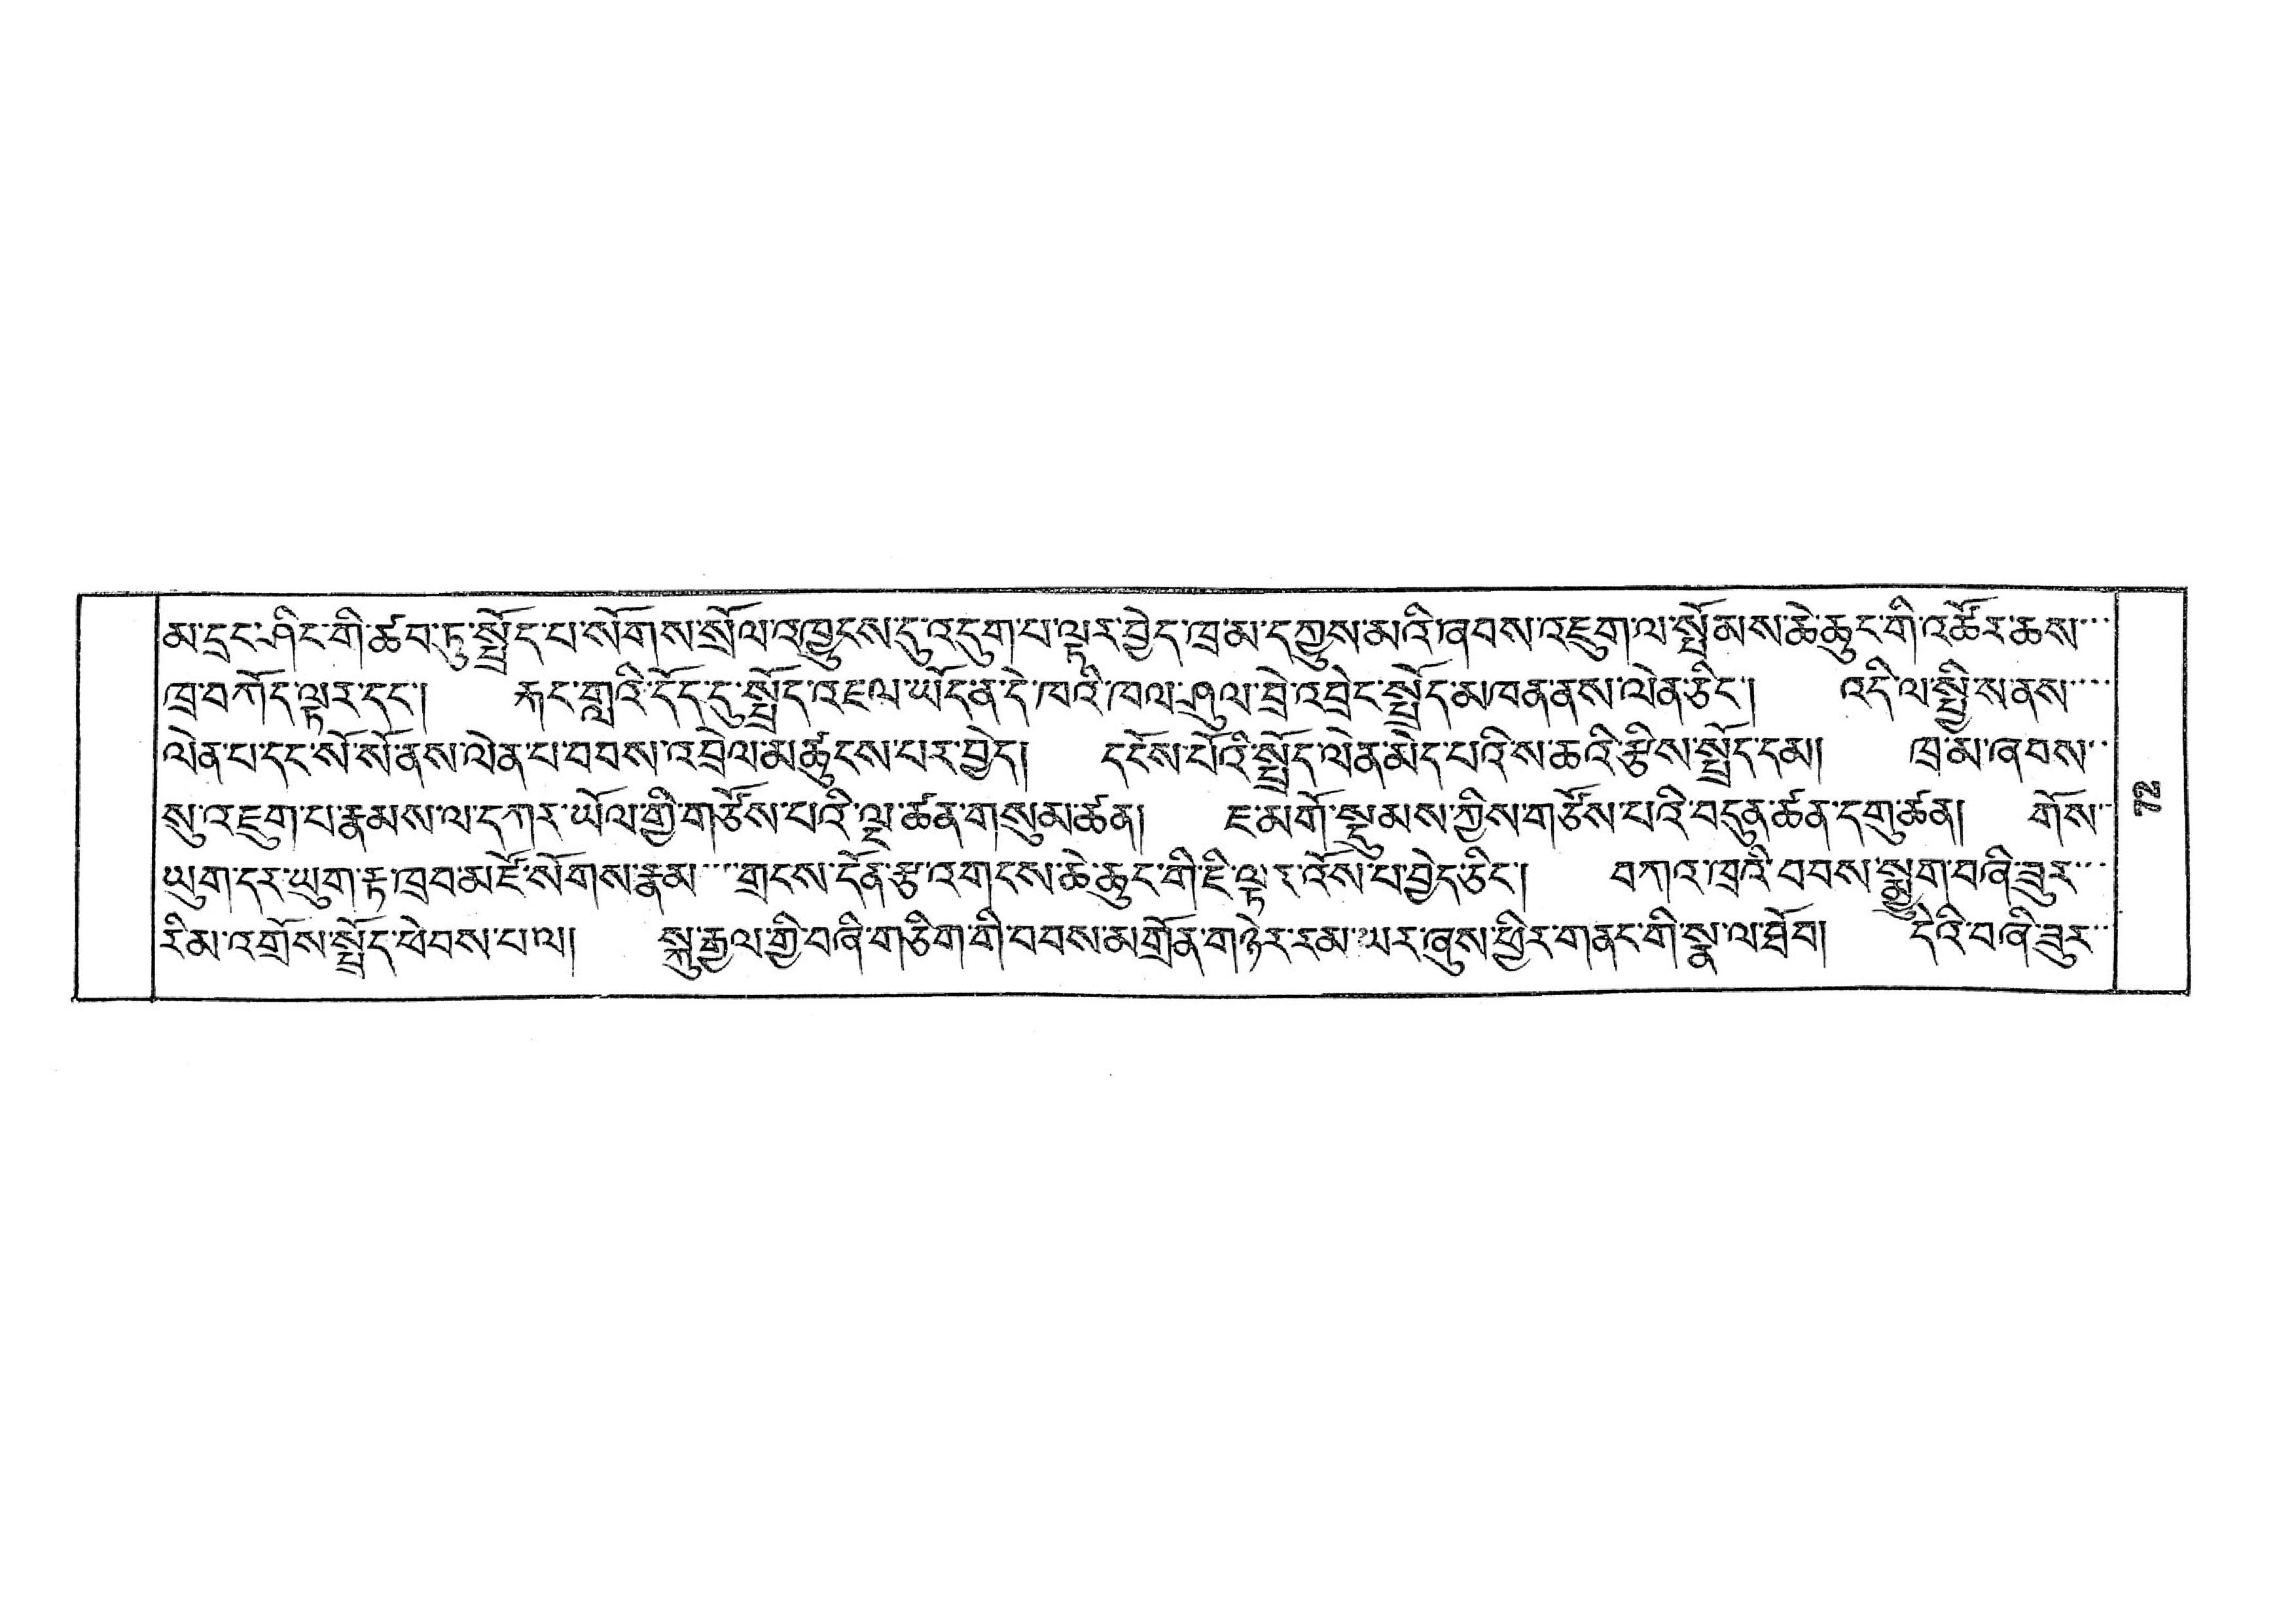མ་དྲང་ཤིང་གི་ཚབ་ཏུ་སྤྲོད་པ་སོགས་སྲོལ་འཁྱུངས་དུ་འདུག་པ་ལྟར་བྱེད་ཁྲ་མ་དཀྱུས་མའི་ཞབས་འཇུག་ལ་སྤོམས་ཆེ་ཆུང་གི་འཚོར་ཆས་་་
ཁྲ་བཀོད་ལྟར་དང་། རྐང་གླའི་དོད་དུ་སྤྲོད་འཇལ་ཡོད་ན་དེ་ལའི་ཁལ་ཤུལ་བྲེ་འབྲེང་སྤྲེད་མཁན་ནས་ལེན་ཅིང་། འདི་ལ་སྤྱི་ས་ནས་་་་
ལེན་པ་དང་སོ་སོ་ནས་ལེན་པ་བབས་འབྲེལ་མཚུངས་པར་བྱེད། དངོས་པོའི་སྤྲོད་ལེན་མེད་པའི་ས་ཆའི་རྩིས་སྤྲོད་དམ། ཁྲ་མ་ཞབས་་
སུ་འཇུག་པ་རྣམས་ལ་དཀར་ཡོལ་གྱི་གཙོས་པའི་ལྔ་ཚན་གསུམ་ཚན། ཇ་མགོ་སྡུམས་ཀྱིས་གཙོས་པའི་བདུན་ཚན་དགུ་ཚན། གོས་་
ཡུག་དར་ཕུག་རྟ་ཁྲབ་མཛོ་སོགས་རྣམ་་་གྲངས་དོན་རྩ་འགངས་ཆེ་ཆུང་གི་ཇི་ལྟར་འོས་པ་བྱེད་ཅིང་། བཀའ་ཁྲའི་བབས་སྨྱུག་བཞི་ཟུར་་་
རིམ་འགྲོས་སྤྲོད་ཕེབས་པ་ལ། སྐུ་རྒྱལ་གྱི་བཞི་གཅིག་གི་བབས་མགྲོན་གཉེར་རམ་ཡར་ཞུས་ཕྱིར་གནང་གི་སྣ་ལ་ཐོབ། དེའི་བཞི་ཟུར་་་
